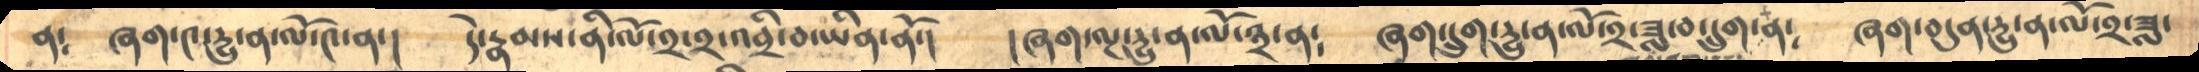ན༴  ཞག་༤་དྱུ་ན་ལོ་༤་ན་།     དེ་རྣམས་ནི་ལོ་༢་༢་འབྲི་བ་ཡིན་ནོ་།     །ཞག་ལྔ་དྱུ་ན་ལོ་༣་ན༴     ཞག་དྲུག་དྱུ་ན་ལོ་༢་ཟླ་བ་དྲུག་ན༴     ཞག་བདུན་དྱུ་ན་ལོ་༢་ཟླ་
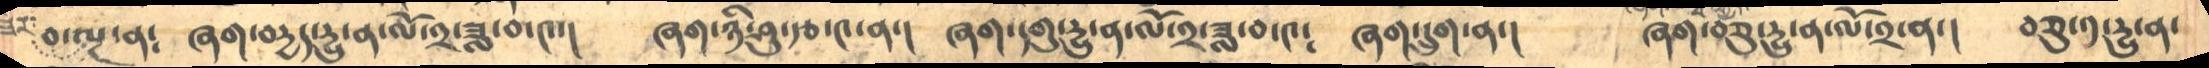བ་ལྔ་ཟེར་ན༴  ཞག་བདྱད་དྱུ་ན་ལོ་༢་ཟླ་བ་༤་།   ཞག་ཉི་ཤུ་རྩ་༤་ན་།  ཞག་དགུ་དྱུ་ན་ལོ་༢་ཟླ་བ་༤༴ ཞག་དྲུག་ན་།  ཞག་བཅུ་དྱུ་ན་ལོ་༢་ན་།  བཅུ་༡་དྱུ་ན་
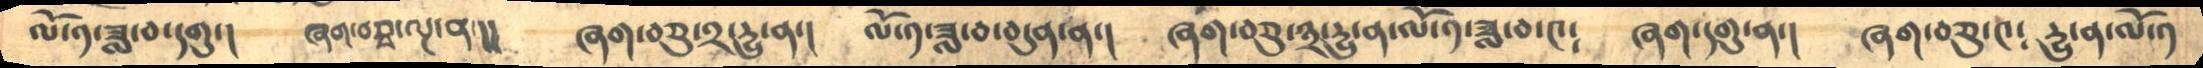ལོ་༡་ཟླ་བ་དགུ་།     ཞག་བཅྭ་ལྔ་ན་།།      ཞག་བཅུ་༢་དྱུ་ན་།     ལོ་༡་ཟླ་བ་བདུན་ན་།     ཞག་བཅུ་༣་དྱུ་ན་ལོ་༡་ཟླ་བ་༤༴   ཞག་དགུ་ན་།    ཞག་བཅུ་༤༴     དྱུ་ན་ལོ་༡
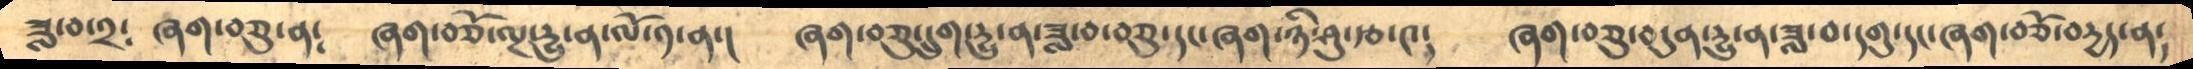ཟླ་བ་༢༴  ཞག་བཅུ་ན༴   ཞག་བཅོ་ལྔ་དྱུ་ན་ལོ་༡་ན་།    ཞག་བཅུ་དྲུག་དྱུ་ན་ཟླ་བ་བཅུ་དང་ཞག་ཉི་ཤུ་རྩ་༤༴     ཞག་བཅུ་བདུན་དྱུ་ན་ཟླ་བ་དགུ་དང་ཞག་བཅོ་བདྱད་ན༴
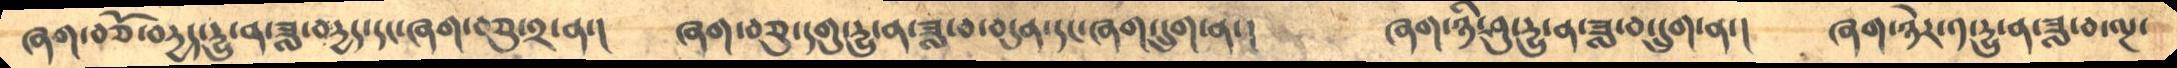ཞག་བཅོ་བདྱད་དྱུ་ན་ཟླ་བདྱད་དང་ཞག་བཅུ་༢་ན་།      ཞག་བཅུ་དགུ་དྱུ་ན་ཟླ་བ་བདུན་དང་ཞག་དྲུག་ན་།   ཞག་ཉི་ཤུ་དྱུ་ན་ཟླ་བ་དྲུག་ན་།      ཞག་ཉེར་༡་དྱུ་ན་ཟླ་བ་ལྔ་
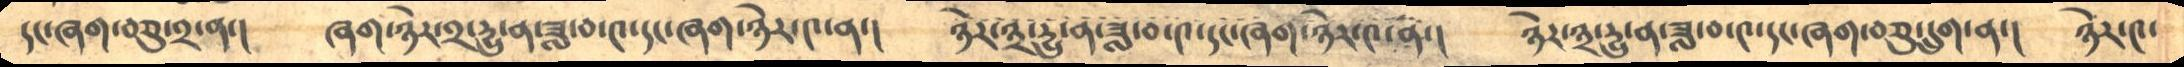དང་ཞག་བཅུ་༢་ན་།      ཞག་ཉེར་༢་དྱུ་ན་ཟླ་བ་༤་དང་ཞག་ཉེར་༤་ན་།    ཉེར་༣་དྱུ་ན་ཟླ་བ་༤་དང་ཞག་ཉེར་༤་ན་།    ཉེར་༣་དྱུ་ན་ཟླ་བ་༤་དང་ཞག་བཅུ་དྲུག་ན་།    ཉེར་༤་
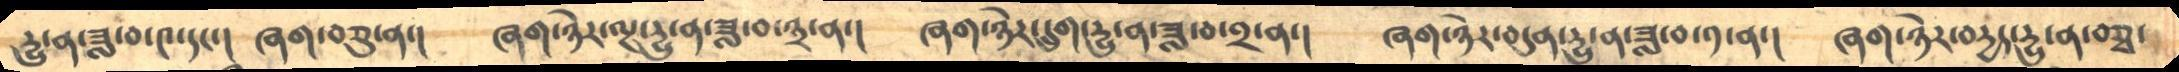དྱུ་ན་ཟླ་བ་༤་དང་།     ཞག་བཅུ་ན་།    ཞག་ཉེར་ལྔ་དྱུ་ན་ཟླ་བ་༣་ན་།      ཞག་ཉེར་དྲུག་དྱུ་ན་ཟླ་བ་༢་ན་།    ཞག་ཉེར་བདུན་དྱུ་ན་ཟླ་བ་༡་ན་།    ཞག་ཉེར་བདྱད་དྱུ་ན་བཅྭ་
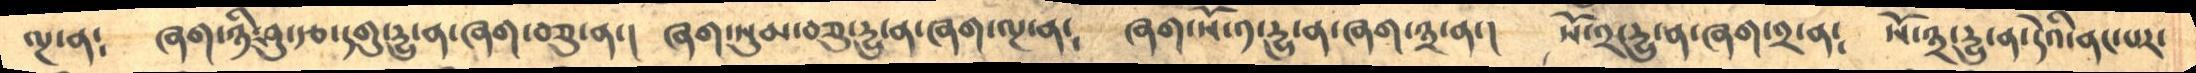ལྔ་ན༴    ཞག་ཉི་ཤུ་རྩ་དགུ་དྱུ་ན་ཞག་བཅུ་ན་།     ཞག་སུམ་བཅུ་དྱུ་ན་ཞག་ལྔ་ན༴    ཞག་སོ་༡་དྱུ་ན་ཞག་༣་ན་།    སོ་༢་དྱུ་ན་ཞག་༢་ན༴     སོ་༣་དྱུ་ན་དེའི་ནང་པར་
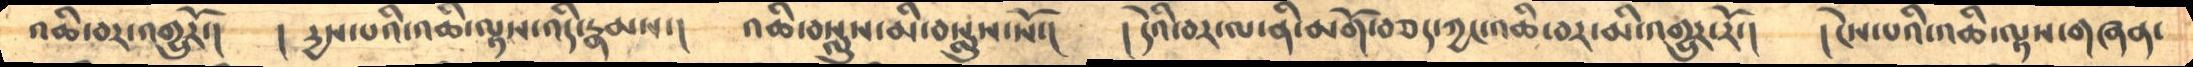འཆི་བར་འགྱུརོ་།      །དྱས་པའི་འཆི་ལྟས་འདི་རྣམས་།      འཆི་བསླུས་མི་བསླུས་སོ་།     །དེའི་བར་ལ་ནི་མགོ་བཅད་ཀྱང་འཆི་བར་མི་འགྱུར་རོ་།   །ངེས་པའི་འཆི་ལྟས་གཞན་
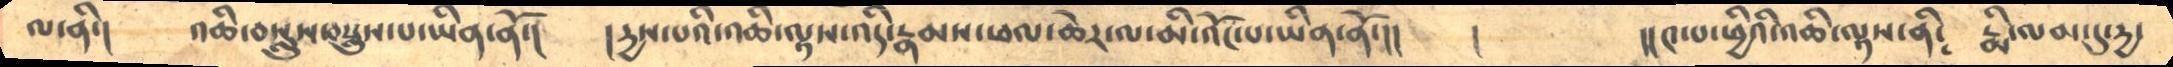ལ་ནི་།     འཆི་བསླུས་བསླུས་པ་ཡིན་ནོ་།     །དྱས་པའི་འཆི་ལྟས་འདི་རྣམས་ཕལ་ཆེར་ལ་མི་འོང་པ་ཡིན་ནོ་།།   །     །།༤་པ་ཕྱིའི་འཆི་ལྟས་ནི༴     རྨི་ལམ་དུ་དྱ་
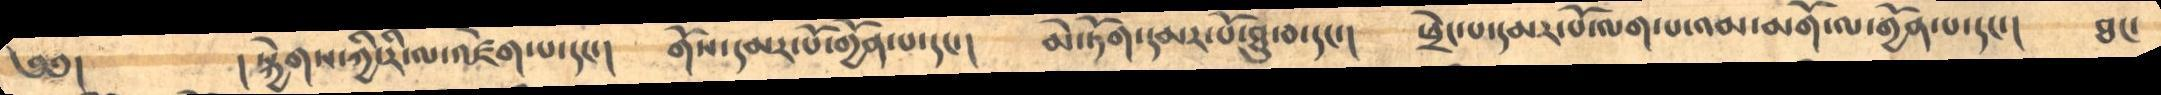༄༅།       །སྐྱེགས་ཀྱི་རི་ལ་འཛེག་པ་དང་།    གོས་དམར་པོ་གྱོན་པ་དང་།     མེ་ཏོག་དམར་པོ་ཐུ་བ་དང་།     ཕྲེང་པ་དམར་པོ་ལག་པ་འམ་མགོ་ལ་གྱོན་པ་དང་།    ཐང་
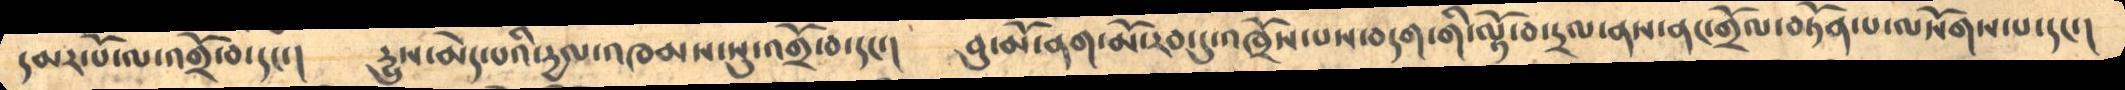དམར་པོ་ལ་འགྲོ་བ་དང་།      དྱུས་མེད་པའི་དྱལ་འཁམས་སུ་འགྲོ་བ་དང་།     བུ་མོ་ནག་མོ་རབ་དུ་འཁྲོས་པས་བདག་གི་ལྟོ་བ་དྲལ་ནས་ནང་གྲོལ་བཏོན་པ་ལསོགས་པ་དང་།
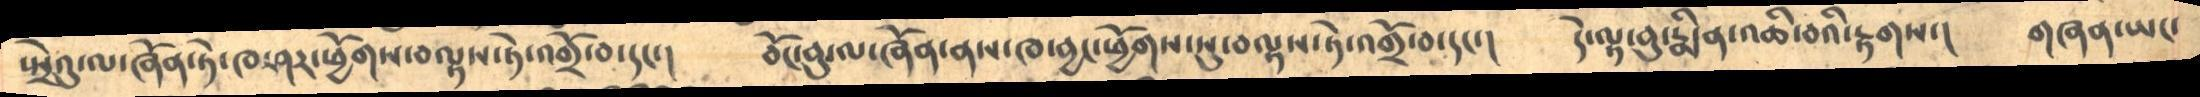སྤྲེའུ་ལ་ཞོན་ཏེ་ཁ་ཤར་ཕྱོགས་བལྟས་ཏེ་འགྲོ་བ་དང་།     བོང་བུ་ལ་ཞོན་ནས་ཁ་བྱང་ཕྱོགས་སུ་བལྟས་ཏེ་འགྲོ་བ་དང་།     དེ་ལྟ་བུ་རྨི་ན་འཆི་བའི་རྟགས་།   གཞན་ཡང་
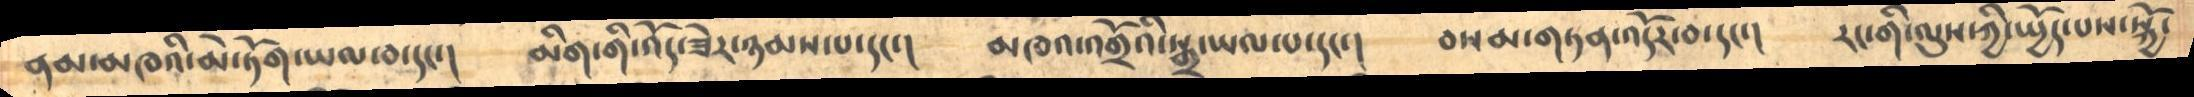ནམ་མཁའི་མེ་ཏོག་ཡལ་བ་དང་།    མིག་གི་འོད་ཟེར་ཉམས་པ་དང་།    མཁའ་འགྲོའི་སྒྲ་ཡལ་པ་དང་།      བསམ་གཏན་འདོར་བ་དང་།་   རང་གི་ལུས་ཀྱི་སྤྱོད་པས་སྐྱོ་
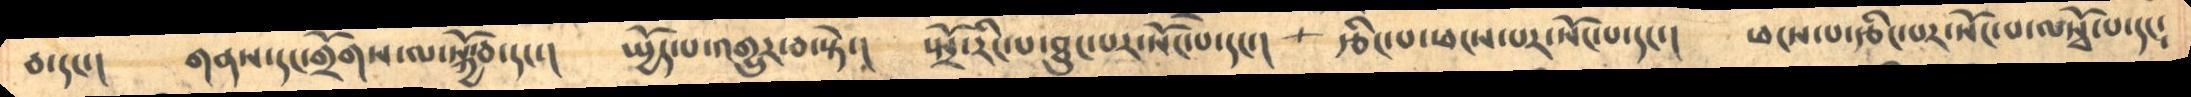བ་དང་།  གནས་དང་གྲོགས་ལ་སྐྱོབ་དང་།  སྤྱོད་པ་འགྱུར་བ་སྟེ་།  སྤྲོ་རིང་པ་ཐུང་པར་སོང་པ་དང་།  རྩིང་པ་ཕངས་པར་སོང་པ་དང་།  ཕངས་པ་རྩིང་པར་སོང་པ་ལསྭོ་པ་དང༴
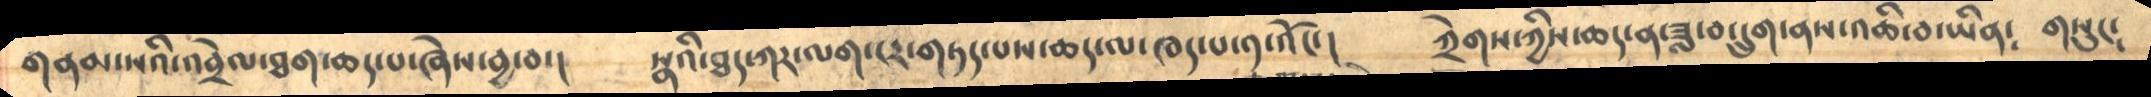གནམ་སའི་འབྲེལ་ཐག་ཆད་པ་ཞེས་བྱ་བ་།      སྣའི་ཐད་ཀར་ལག་ངར་གཏད་པས་ཆད་ལ་ཁད་པ་༡་འོང་།    ཀྲེགས་ཀྱིས་ཆད་ན་ཟླ་བ་དྲུག་ནས་འཆི་བ་ཡིན༴  གསུང༴
